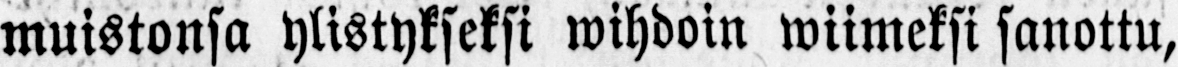muistonsa ylistykseksi wihdoin wiimeksi sanottu,
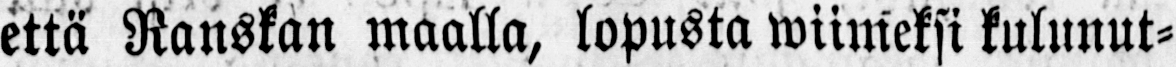että Ranskan maalla, lopusta wiimeksi kulunut-
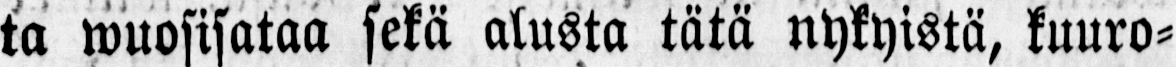ta wuosisataa sekä alusta tätä nykyistä, kuuro-
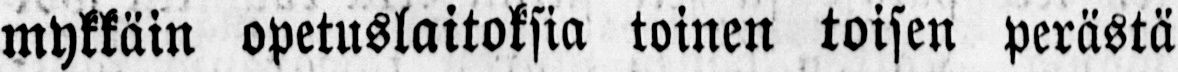mykkäin opetuslaitoksia toinen toisen perästä
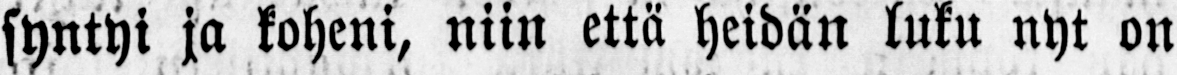syntyi ja koheni, niin että heidän luku nyt on
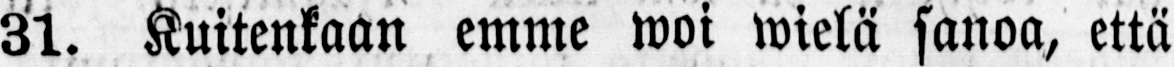31. Kuitenkaan emme woi wielä sanoa, että
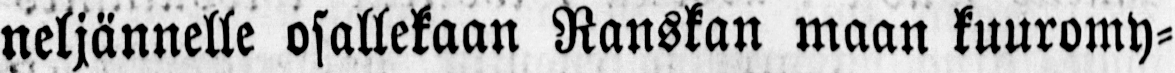neljännelle osallekaan Ranskan maan kuuromy-
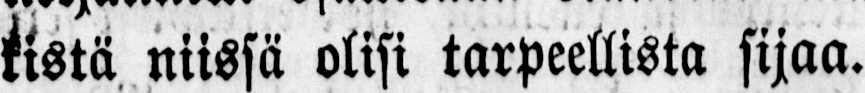kistä niissä olisi tarpeellista sijaa.
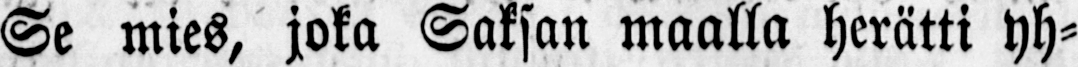Se mies, joka Saksan maalla herätti yh-
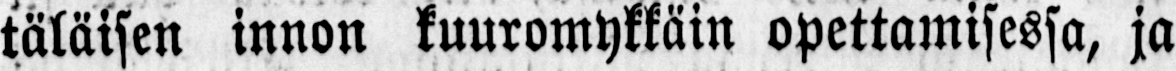täläisen innon kuuromykkäin opettamisessa, ja
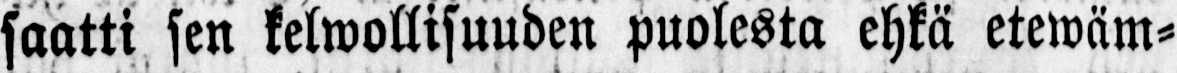saatti sen kelwollisuuden puolesta ehkä etewäm-
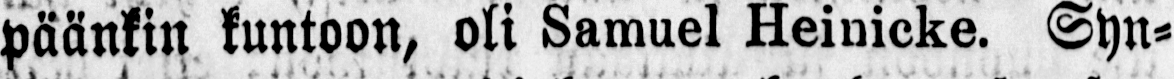päänkin kuntoon, oli Samuel Heinicke. Syn-
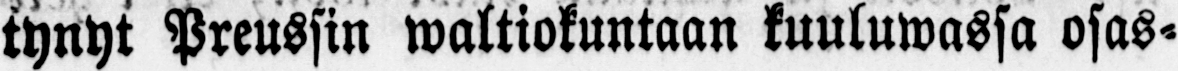tynyt Preussin waltiokuntaan kuuluwassa osas-
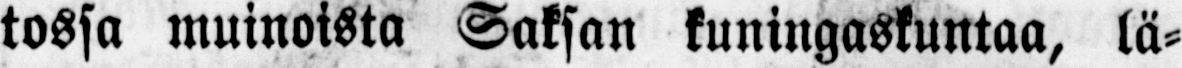tossa muinoista Saksan kuningaskuntaa, lä-
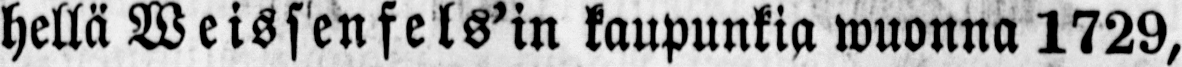hellä Weissenfels'in kaupunkia wuonna 1729,
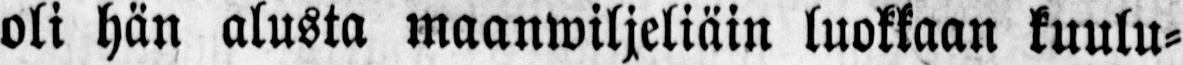oli hän alusta maanwiljeliäin luokkaan kuulu-
